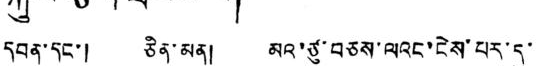དབན་དང་། ཅིན་མན། མའ་ཙུ་བཅས་ལང་ངེས་པར་དུ་
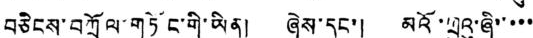བཅིངས་བཀྲོལ་གཏོང་གི་ཡིན། ཞེས་དང་། མའོ་ཀྲུའུ་ཞི་་་་་
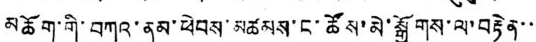མཆོག་གི་བཀའ་ནམ་ཕེབས་མཚམས་ང་ཚོས་མེ་སྒྱོགས་ལ་བརྟེན་་
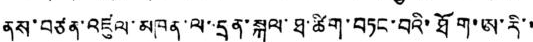ནས་བཙན་འཛུལ་མཁན་ལ་་དྲན་སྐུལ་ཐ་ཚིག་བཏང་བའི་ཐོག་ཨ་རི་་
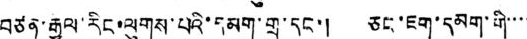བཙན་རྒྱལ་རིང་ལུགས་པའི་དམག་གྲུ་དང་། ཅང་ཇག་དམག་གི་་་་
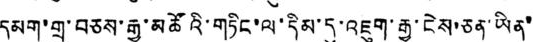དམག་གྲུ་བཅས་རྒྱ་མཚོའི་གཏིང་ལ་དིམ་དུ་འཇུག་རྒྱུ་ངེས་ཅན་ཡིན་
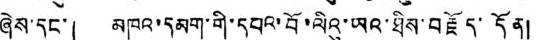ཞེས་དང་། མཁའ་དམག་གི་དཔའ་བོ་ལིའུ་ཡའ་ཐིས་བརྗོད་དོན།
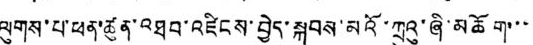ལུགས་པ་ཕན་ཚུན་འཐབ་འཛིངས་བྱེད་སྐབས་མའོ་ཀྲུའུ་ཞི་མཆོག་་་
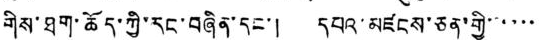གིས་ཐག་ཆོད་ཀྱི་རང་བཞིན་དང་། དཔའ་མཛངས་ཅན་གྱི་་་་་་
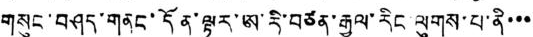གསུང་བཤད་གནང་དོན་ལྟར་ཨ་རི་བཙན་རྒྱལ་རིང་ལུགས་པ་ནི་་་
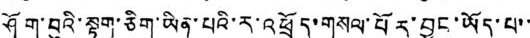ཤོག་བུའི་སྟག་ཅིག་ཡིན་པའི་ར་འཕྲོད་གསལ་པོར་བྱུང་ཡོད་པ་་
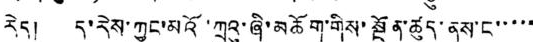རེད། ད་རེས་ཀྱང་མའོ་ཀྲུའུ་ཞི་མཆོག་གིས་སྔོན་ཚུད་ནས་ང་་་་་
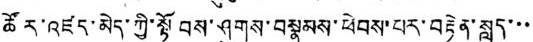ཚོར་འཛད་མེད་ཀྱི་སྟོབས་ཤུགས་བསྣམས་ཕེབས་པར་བརྟེན་སླད་་་
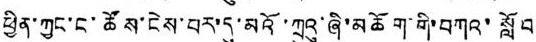ཕྱིན་ཀྱང་ང་ཚོས་ངེས་པར་དུ་མའོ་ཀྲུའུ་ཞི་མཆོག་གི་བཀའ་སློབ
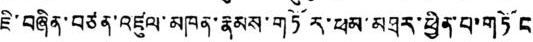ཇི་བཞིན་བཙན་འཛུལ་མཁན་རྣམས་གཏོར་ཕམ་མཐར་ཕྱིན་པ་གཏོང
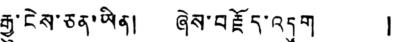རྒྱུ་ངེས་ཅན་ཡིན། ཞེས་བརྗོད་འདུག །
